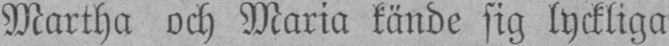Martha och Maria kände sig lyckliga
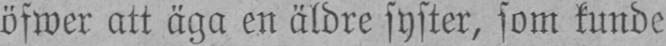öfwer att äga en äldre syster, som kunde
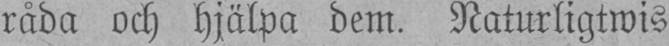råda och hjälpa dem. Naturligtwis
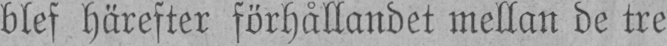blef härefter förhållandet mellan de tre
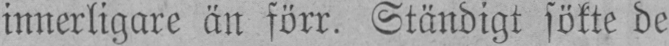innerligare än förr. Ständigt sökte de
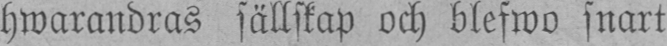hwarandras sällskap och blefwo snart
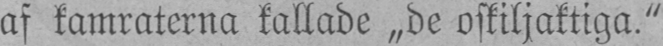af kamraterna kallade „de oskiljaktiga."
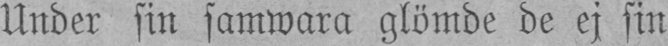Under sin samwara glömde de ej sin
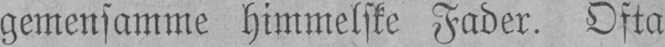gemensamme himmelske Fader. Ofta
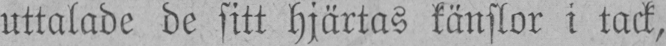uttalade de sitt hjärtas känslor i tack,
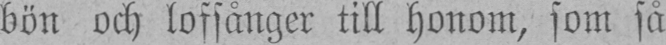bön och lofsånger till honom, som så
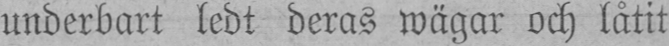underbart ledt deras wägar och låtit
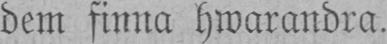dem finna hwarandra.
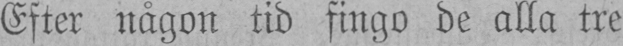Efter någon tid fingo de alla tre
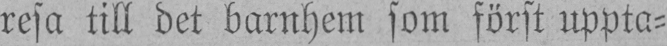resa till det barnhem som först uppta-
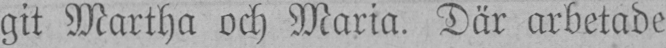git Martha och Maria. Där arbetade
